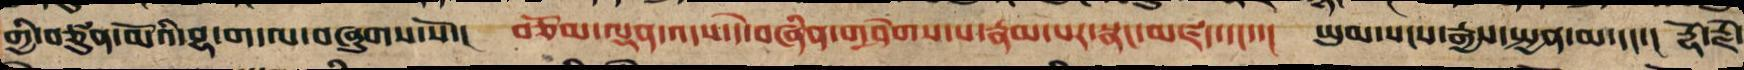གྱི་བཙུན་མོའི་བྷ་ག་ལ་བཞུགས་སོ་། བཅོམ་ལྡན་འདས་དེ་བཞིན་གཤེགས་པ་རྣམ་པར་སྣང་མཛད་དང་་། ཡུམ་སངས་རྒྱས་སྤྱན་མ་དང་་། རྡོ་རྗེ་
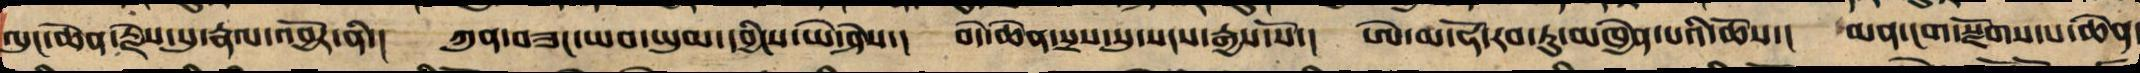ལུང་ཆེན་རྗེས་སུ་རྣལ་འབྱོར་ནི་། ཀུན་བཟང་ཡབ་ཡུམ་དབྱིངས་ཡེ་ཤེས་། བདེ་ཆེན་སྲས་སུ་སངས་རྒྱས་སོ་། ཨེ་མ་ཧོ་རབ་ཏུ་མཁྱེན་པའི་ཆོས་། མན་ངག་སྫོགས་པ་ཆེན་
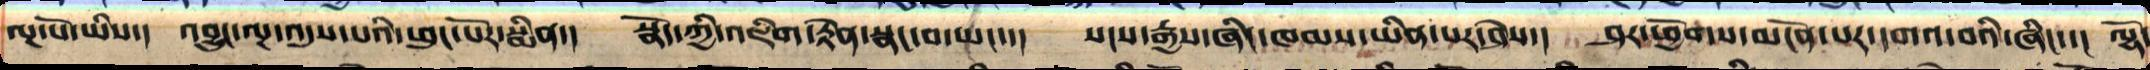ལྔ་པོ་ཡིས་།  འབྱུང་ལྔ་འདུས་པའི་ཕུང་པོར་སྨིན་།  སྣོད་ཀྱི་འཇིག་རྟེན་སྣང་བ་ཡང་་།  སངས་རྒྱས་ཞིང་ཁམས་ཡིན་པར་ཤེས་།  ཤར་ཕྱོགས་མངོན་པར་དགའ་བའི་ཞིང་་།  ལྷོ་
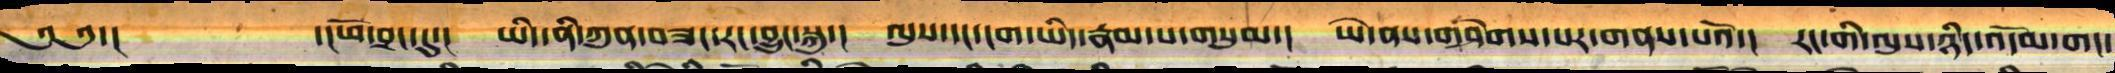༄༅་། ་།ཕོ་བྲང་དུ་། ཡིད་ནི་ཀུན་བཟང་རང་བྱུང་སྐུ་། ལུས་དང་ངག་ཡིད་རྣམ་པ་གསུམ་། ཡེ་ནས་གཤེགས་པར་གནས་པའོ་། རང་གི་ལུས་ཉིད་འདོམ་གང་
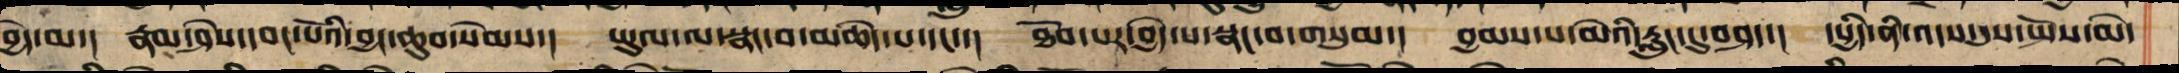བྱེད་མ་། རྣམ་ཤེས་དབང་པོའི་བྱང་ཆུབ་སེམས་། ཡུལ་ལ་སྣང་བ་མཆེད་པ་དང་་། ཐོབ་པར་བྱེད་པ་སྣང་བ་གསུམ་། བྱམས་པ་མེ་ཡི་རླུང་དུ་བཤད་། དཔྱིད་ནི་འདས་དུས་སྤོས་མེ་
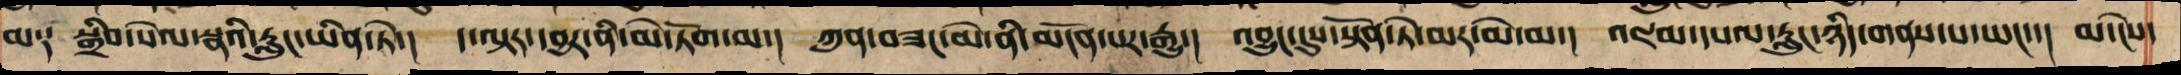མ༑ སྒྲིབ་སེལ་སྣའི་རླུང་ཡིན་ཏེ་། དེ་ལྟར་དབྱར་ནི་མེ་ཏོག་མ་། ཀུན་བཟང་མེ་ནི་མངོན་པར་རྒྱུ་། འབྱུང་དུས་སྟོན་ཏེ་མར་མེ་མ་། འཇམ་དཔལ་རླུང་ཉིད་གནས་པ་ཡང་་། མ་ངེས་
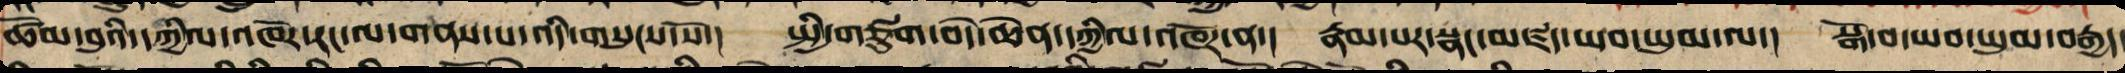ཚོམ་བུའི་དཀྱིལ་འཁོར་རང་ལ་གནས་པ་འདི་གསུངས་སོ་། སྤྱི་གཙུག་བདེ་ཆེན་དཀྱིལ་འཁོར་ན་། རྣམ་པར་སྣང་མཛད་ཡབ་ཡུམ་ལ་། སྒོ་བ་ཡབ་ཡུམ་བརྒྱད་
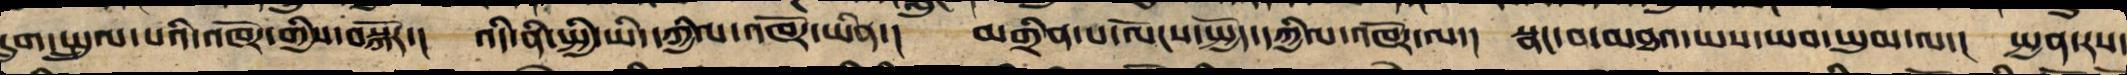དྲུག་སྤྲུལ་པའི་འཁོར་གྱིས་བསྐོར་། འདི་ནི་སྤྱི་ཡི་དཀྱིལ་འཁོར་ཡིན་། མགྲིན་པ་ལོངས་སྤྱོད་དཀྱིལ་འཁོར་ལ་། སྣང་བ་མཐའ་ཡས་ཡབ་ཡུམ་ལ་། སྤྱན་རས་
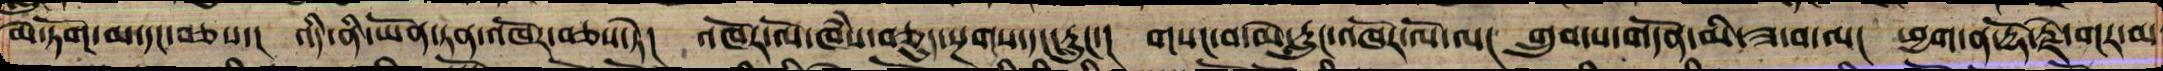མེ་ཏོག་མ་དང་བཅས་། འདི་ནི་ཡོན་ཏན་འཁོར་བཅས་ཏེ། འཁོར་ལོ་ཁཾས་བཅུད་སྔགས་དང་རླུང་། གསང་བ་མེ་རླུང་འཁོར་ལོ་ལ། གྲུབ་པ་གདོན་མི་ཟ་བ་ལ། ཕྱག་ན་རྡོ་རྗེ་གར་མ་
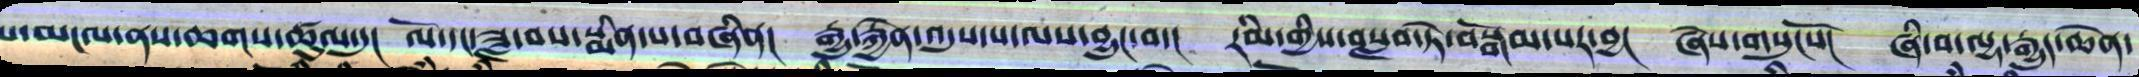པ་མངལ་ནས་ཆགས་ཚུལ་དུ།  ལོ་དང་ཟླ་བས་སྨིན་པ་བཞིན།  རྒྱུ་རྐྱེན་འདུས་པ་ལས་བྱུང་བ་།  རིམ་གྱིས་བསླབ་ཏེ་བསྒོམ་པར་བྱ།  ཞེས་གསུངསོ།  ཞི་བ་ལྷ་རྒྱུད་ཆེན་
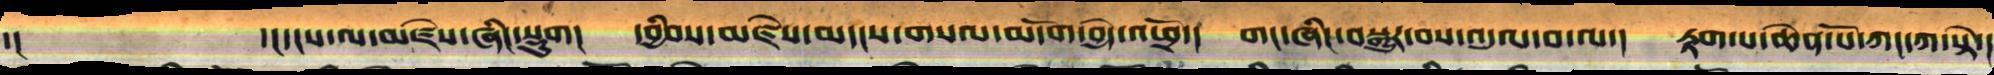དང         ་།དངས་ལ་མཛེས་ཤིང་སྡུག།   དབྱིབས་མཛེས་མདངས་གསལ་མདོག་ཕྱེད་འཕྲོ་།  གང་ཞིང་བསྒྱུར་བས་འདུལ་བ་ལ་།  རྟག་པ་ཆེན་པོ་ཀང་ཀ་སྟེ་།
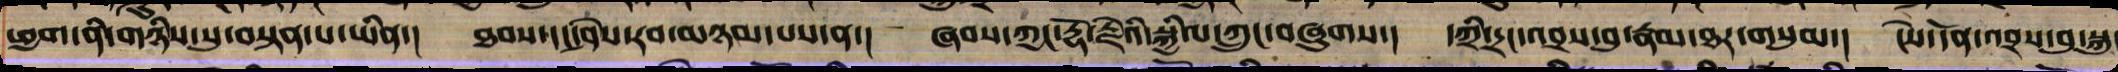ཕྱག་ནི་གཉིས་སུ་བསྟན་པ་ཡིན་།  ཐབས་དང་ཤེས་རབ་མཉམ་པས་ན་།  ཞབས་ཀྱང་རྡོ་རྗེའི་སྐྱིལ་ཀྲུང་བཞུགས་།  དཀྲི་དྲང་འབྲས་བུ་རྣམ་ཐར་གསུམ་།  ངེས་དོན་འབྲས་བུ་སྐུ
